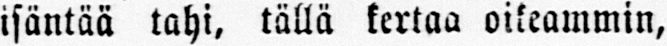isäntää tahi, tällä kertaa oikeammin,
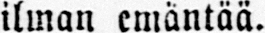ilman emäntää.
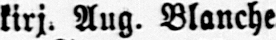kirj. Aug. Blanche.
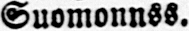Suomonnss.
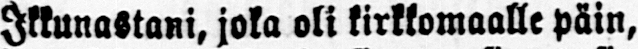Ikkunastani, joka oli kirkkomaalle päin,
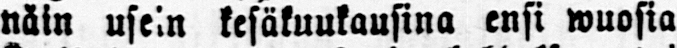näin usein kesäkuukausina ensi wuosia
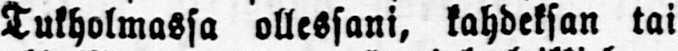Tukholmassa ollessani, kahdeksan tai
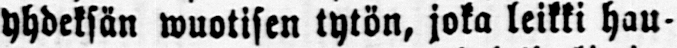yhdeksän wuotisen tytön, joka leikki hau-
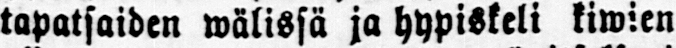tapatsaiden wälissä ja hypiskeli kiwien
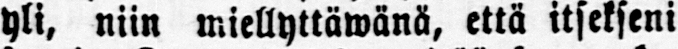yli, niin miellyttäwänä, että itsekseni
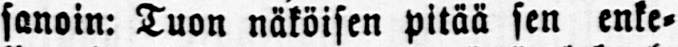sanoin: Tuon näköisen pitää sen enke-
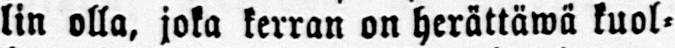lin olla, joka kerran on herättäwä kuol-
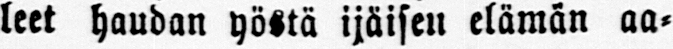leet haudan yöstä ijäisen elämän aa-
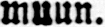muun.
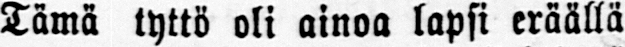Tämä tyttö oli ainoa lapsi eräällä
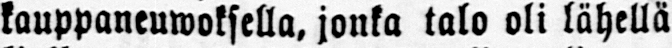kauppaneuwoksella, jonka talo oli lähellä
